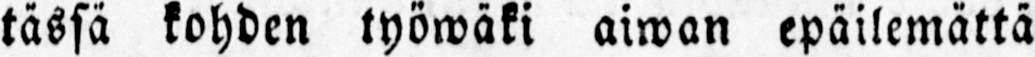tässä kohden työwäki aiwan epäilemättä
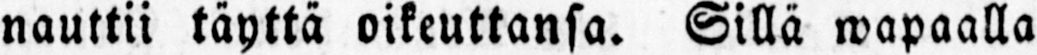nauttii täyttä oikeuttansa. Sillä wapaalla
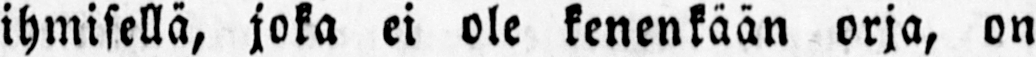ihmisellä, joka ei ole kenenkään orja, on
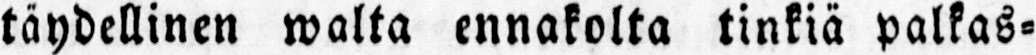täydellinen walta ennakolta tinkiä palkas-
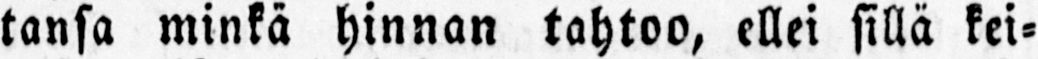tansa minkä hinnan tahtoo, ellei sillä kei-
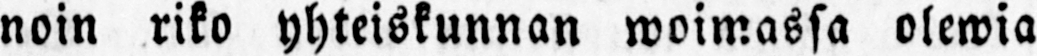noin riko yhteiskunnan woimassa olewia
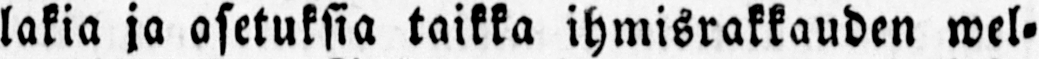lakia ja asetuksia taikka ihmisrakkauden wel-
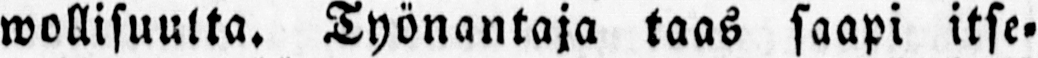wollisuulta. Työnantaja taas saapi itse-
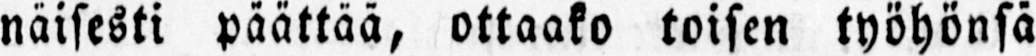näisesti päättää, ottaako toisen työhönsä
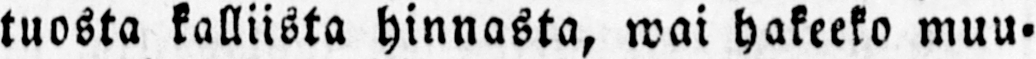tuosta kalliista hinnasta, wai hakeeko muu-
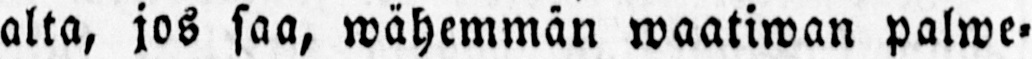alta, jos saa, wähemmän waatiwan palwe-
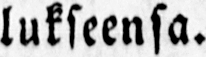lukseensa.
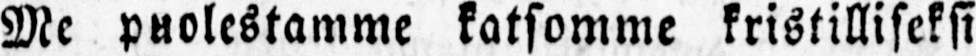Me puolestamme katsomme kristilliseksi
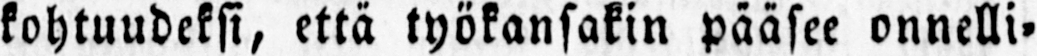kohtuudeksi, että työkansakin pääsee onnelli-
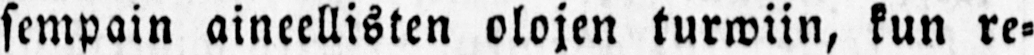sempain aineellisten olojen turwiin, kun re-
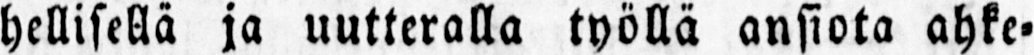hellisellä ja uutteralla työllä ansiota ahke-
